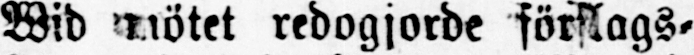Wid mötet redogjorde förslags-
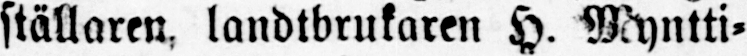ställaren, landtbrukaren H. Myntti-
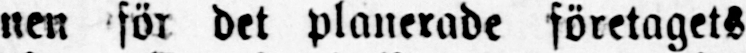nen för det planerade företagets
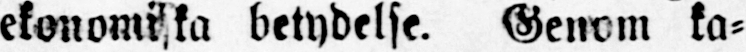ekonomiska betydelse. Genom ka-
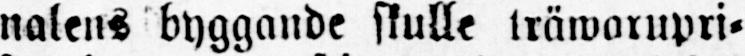nalens byggande skulle träwarupri-
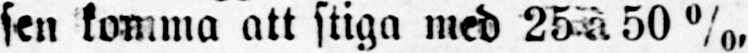sen komma att stiga med 25 à 50 %,
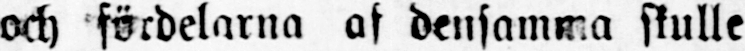och fördelarna af densamma skulle
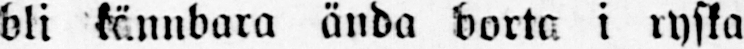bli kännbara ända borta i ryska
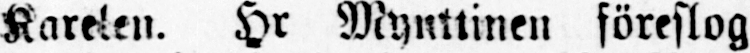Karelen. Hr Mynttinen föreslog
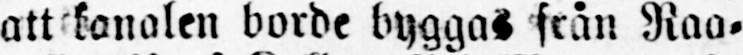att kanalen borde byggas från Raa-
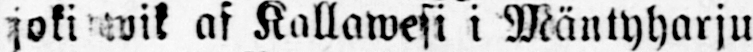joki wik af Kallawesi i Mäntyharju
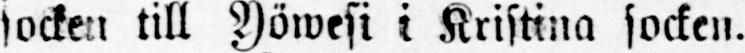socken till Yöwesi i Kristina socken.
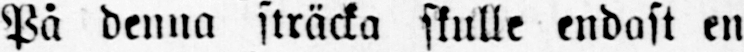På denna sträcka skulle endast en
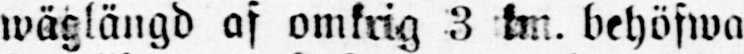wäglängd af omkrig 3 km. behöfwa
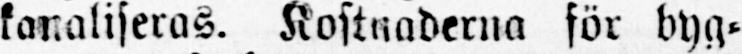kanaliseras. Kostnaderna för byg-
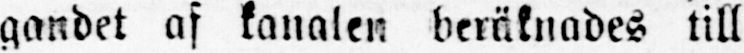gandet af kanalen beräknades till
